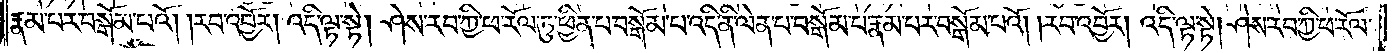རྣམ་པར་བསྒོམ་པའོ། །རབ་འབྱོར། འདི་ལྟ་སྟེ། ཤེས་རབ་ཀྱི་ཕ་རོལ་ཏུ་ཕྱིན་པ་བསྒོམ་པ་འདི་ནི་ལེན་པ་བསྒོམ་པ་རྣམ་པར་བསྒོམ་པའོ། །རབ་འབྱོར། འདི་ལྟ་སྟེ། ཤེས་རབ་ཀྱི་ཕ་རོལ་
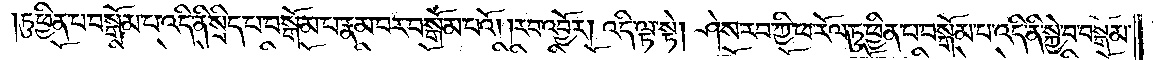ཏུ་ཕྱིན་པ་བསྒོམ་པ་འདི་ནི་སྲིད་པ་བསྒོམ་པ་རྣམ་པར་བསྒོམ་པའོ། །རབ་འབྱོར། འདི་ལྟ་སྟེ། ཤེས་རབ་ཀྱི་ཕ་རོལ་ཏུ་ཕྱིན་པ་བསྒོམ་པ་འདི་ནི་སྐྱེ་བ་བསྒོམ་
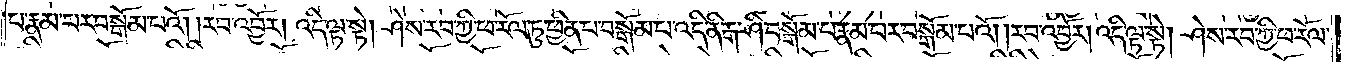པ་རྣམ་པར་བསྒོམ་པའོ། །རབ་འབྱོར། འདི་ལྟ་སྟེ། ཤེས་རབ་ཀྱི་ཕ་རོལ་ཏུ་ཕྱིན་པ་བསྒོམ་པ་འདི་ནི་རྒ་ཤི་བསྒོམ་པ་རྣམ་པར་བསྒོམ་པའོ། །རབ་འབྱོར། འདི་ལྟ་སྟེ། ཤེས་རབ་ཀྱི་ཕ་རོལ་
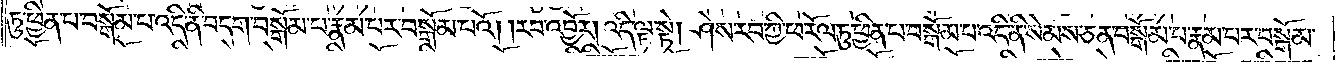ཏུ་ཕྱིན་པ་བསྒོམ་པ་འདི་ནི་བདག་བསྒོམ་པ་རྣམ་པར་བསྒོམ་པའོ། །རབ་འབྱོར། འདི་ལྟ་སྟེ། ཤེས་རབ་ཀྱི་ཕ་རོལ་ཏུ་ཕྱིན་པ་བསྒོམ་པ་འདི་ནི་སེམས་ཅན་བསྒོམ་པ་རྣམ་པར་བསྒོམ་
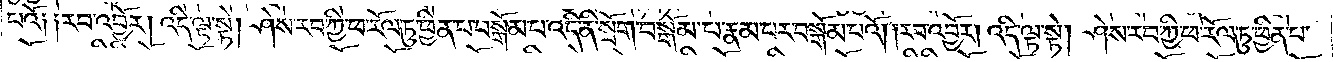པའོ། །རབ་འབྱོར། འདི་ལྟ་སྟེ། ཤེས་རབ་ཀྱི་ཕ་རོལ་ཏུ་ཕྱིན་པ་བསྒོམ་པ་འདི་ནི་སྲོག་བསྒོམ་པ་རྣམ་པར་བསྒོམ་པའོ། །རབ་འབྱོར། འདི་ལྟ་སྟེ། ཤེས་རབ་ཀྱི་ཕ་རོལ་ཏུ་ཕྱིན་པ་
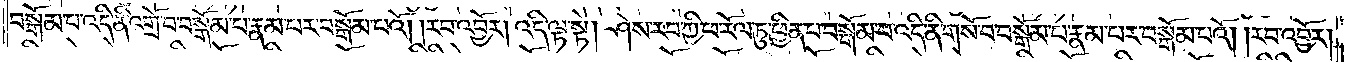བསྒོམ་པ་འདི་ནི་འགྲོ་བ་བསྒོམ་པ་རྣམ་པར་བསྒོམ་པའོ། །རབ་འབྱོར། འདི་ལྟ་སྟེ། ཤེས་རབ་ཀྱི་ཕ་རོལ་ཏུ་ཕྱིན་པ་བསྒོམ་པ་འདི་ནི་གསོ་བ་བསྒོམ་པ་རྣམ་པར་བསྒོམ་པའོ། །རབ་འབྱོར།
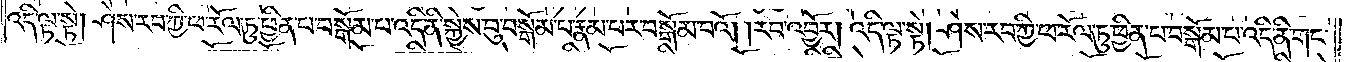འདི་ལྟ་སྟེ། ཤེས་རབ་ཀྱི་ཕ་རོལ་ཏུ་ཕྱིན་པ་བསྒོམ་པ་འདི་ནི་སྐྱེས་བུ་བསྒོམ་པ་རྣམ་པར་བསྒོམ་པའོ། །རབ་འབྱོར། འདི་ལྟ་སྟེ། ཤེས་རབ་ཀྱི་ཕ་རོལ་ཏུ་ཕྱིན་པ་བསྒོམ་པ་འདི་ནི་གང་
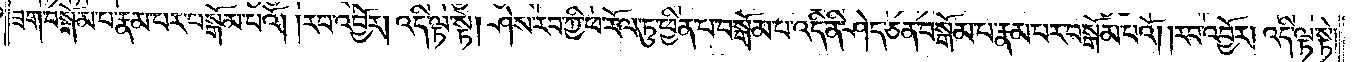ཟག་བསྒོམ་པ་རྣམ་པར་བསྒོམ་པའོ། །རབ་འབྱོར། འདི་ལྟ་སྟེ། ཤེས་རབ་ཀྱི་ཕ་རོལ་ཏུ་ཕྱིན་པ་བསྒོམ་པ་འདི་ནི་ཤེད་ཅན་བསྒོམ་པ་རྣམ་པར་བསྒོམ་པའོ། །རབ་འབྱོར། འདི་ལྟ་སྟེ།
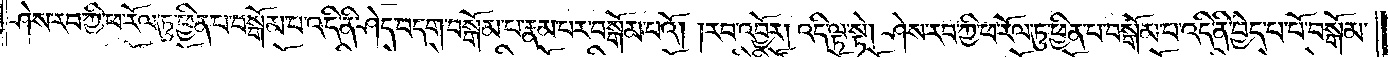ཤེས་རབ་ཀྱི་ཕ་རོལ་ཏུ་ཕྱིན་པ་བསྒོམ་པ་འདི་ནི་ཤེད་བདག་བསྒོམ་པ་རྣམ་པར་བསྒོམ་པའོ། །རབ་འབྱོར། འདི་ལྟ་སྟེ། ཤེས་རབ་ཀྱི་ཕ་རོལ་ཏུ་ཕྱིན་པ་བསྒོམ་པ་འདི་ནི་བྱེད་པ་པོ་བསྒོམ་
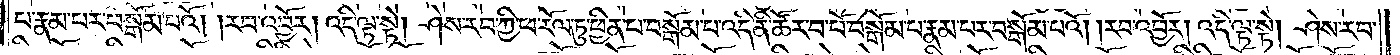པ་རྣམ་པར་བསྒོམ་པའོ། །རབ་འབྱོར། འདི་ལྟ་སྟེ། ཤེས་རབ་ཀྱི་ཕ་རོལ་ཏུ་ཕྱིན་པ་བསྒོམ་པ་འདི་ནི་ཚོར་བ་པོ་བསྒོམ་པ་རྣམ་པར་བསྒོམ་པའོ། །རབ་འབྱོར། འདི་ལྟ་སྟེ། ཤེས་རབ་
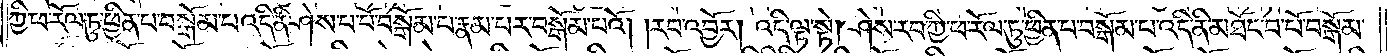ཀྱི་ཕ་རོལ་ཏུ་ཕྱིན་པ་བསྒོམ་པ་འདི་ནི་ཤེས་པ་པོ་བསྒོམ་པ་རྣམ་པར་བསྒོམ་པའོ། །རབ་འབྱོར། འདི་ལྟ་སྟེ། ཤེས་རབ་ཀྱི་ཕ་རོལ་ཏུ་ཕྱིན་པ་བསྒོམ་པ་འདི་ནི་མཐོང་བ་པོ་བསྒོམ་
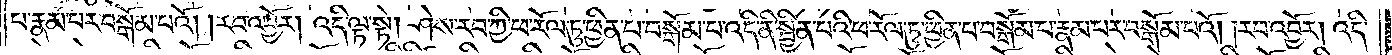པ་རྣམ་པར་བསྒོམ་པའོ། །རབ་འབྱོར། འདི་ལྟ་སྟེ། ཤེས་རབ་ཀྱི་ཕ་རོལ་ཏུ་ཕྱིན་པ་བསྒོམ་པ་འདི་ནི་སྦྱིན་པའི་ཕ་རོལ་ཏུ་ཕྱིན་པ་བསྒོམ་པ་རྣམ་པར་བསྒོམ་པའོ། །རབ་འབྱོར། འདི་
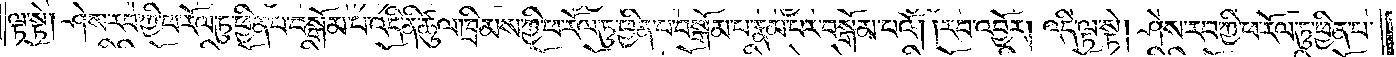ལྟ་སྟེ། ཤེས་རབ་ཀྱི་ཕ་རོལ་ཏུ་ཕྱིན་པ་བསྒོམ་པ་འདི་ནི་ཚུལ་ཁྲིམས་ཀྱི་ཕ་རོལ་ཏུ་ཕྱིན་པ་བསྒོམ་པ་རྣམ་པར་བསྒོམ་པའོ། །རབ་འབྱོར། འདི་ལྟ་སྟེ། ཤེས་རབ་ཀྱི་ཕ་རོལ་ཏུ་ཕྱིན་པ་
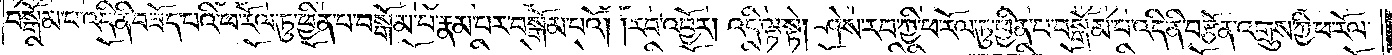བསྒོམ་པ་འདི་ནི་བཟོད་པའི་ཕ་རོལ་ཏུ་ཕྱིན་པ་བསྒོམ་པ་རྣམ་པར་བསྒོམ་པའོ། །རབ་འབྱོར། འདི་ལྟ་སྟེ། ཤེས་རབ་ཀྱི་ཕ་རོལ་ཏུ་ཕྱིན་པ་བསྒོམ་པ་འདི་ནི་བརྩོན་འགྲུས་ཀྱི་ཕ་རོལ་
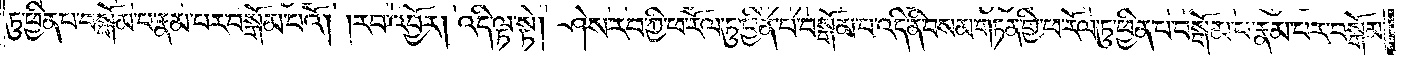ཏུ་ཕྱིན་པ་བསྒོམ་པ་རྣམ་པར་བསྒོམ་པའོ། །རབ་འབྱོར། འདི་ལྟ་སྟེ། ཤེས་རབ་ཀྱི་ཕ་རོལ་ཏུ་ཕྱིན་པ་བསྒོམ་པ་འདི་ནི་བསམ་གཏན་གྱི་ཕ་རོལ་ཏུ་ཕྱིན་པ་བསྒོམ་པ་རྣམ་པར་བསྒོམ་
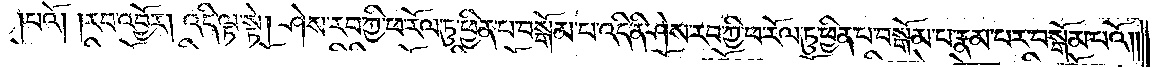པའོ། །རབ་འབྱོར། འདི་ལྟ་སྟེ། ཤེས་རབ་ཀྱི་ཕ་རོལ་ཏུ་ཕྱིན་པ་བསྒོམ་པ་འདི་ནི་ཤེས་རབ་ཀྱི་ཕ་རོལ་ཏུ་ཕྱིན་པ་བསྒོམ་པ་རྣམ་པར་བསྒོམ་པའོ༎
